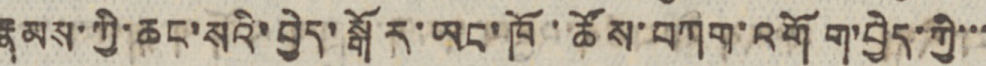རྣམས་ཀྱི་ཆང་སའི་བྱེད་སྒོར་ཡང་ཁོ་ཚོས་བཀག་འགོག་བྱེད་ཀྱི་་་
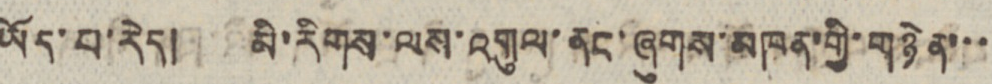ཡོད་པ་རེད། མི་རིགས་ལས་འགུལ་ནང་ཞུགས་མཁན་གྱི་གཉེན་་་
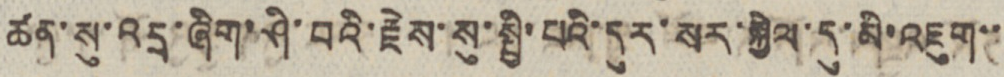ཚན་སུ་འདྲ་ཞིག་ཤི་བའི་རྗེས་སུ་སྤྱི་པའི་དུར་སར་སྐྱིལ་དུ་མི་འཇུག་་
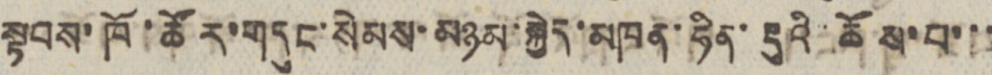སྟབས་ཁོ་ཚོར་གདུང་སེམས་མཉམ་སྐྱེད་མཁན་ཧིན་རྡུའི་ཆོས་པ་་་
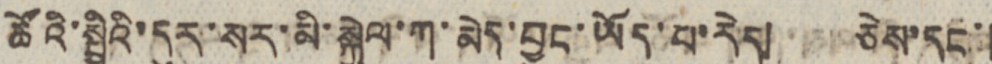ཚོའི་སྤྱིའི་དུར་སར་མི་སྐྱེལ་ཀ་མེད་བྱུང་ཡོད་པ་རེད། ཅེས་དང་།
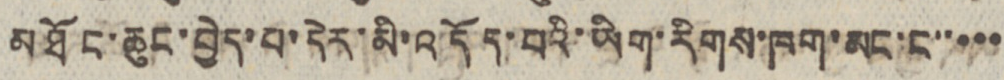མཐོང་ཆུང་བྱེད་པ་དེར་མི་འདོད་པའི་ཡིག་རིགས་ཁག་མང་ང་་་་་
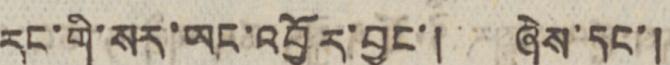རང་གི་སར་ཡང་འབྱོར་བྱུང་། ཞེས་དང་།
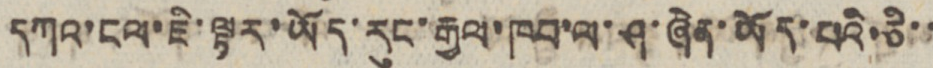དཀའ་ངལ་ཇི་ལྟར་ཡོད་རུང་རྒྱལ་ཁབ་ལ་ཤ་ཞེན་ཡོད་པའི་ཅི་་
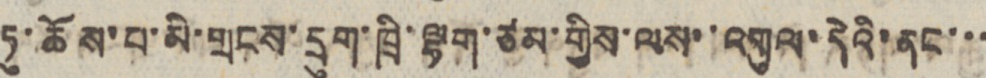ཏུ་ཆོས་པ་མི་གྲངས་དྲུག་ཁྲི་ལྷག་ཙམ་གྱིས་ལས་་འགུལ་དེའི་ནང་་་
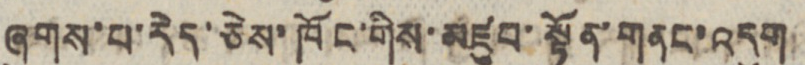ཞུགས་པ་རེད་ཅེས་ཁོང་གིས་མཛུབ་སྟོན་གནང་འདུག
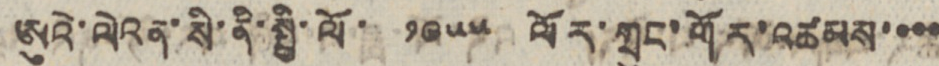ཨུའེ་ལེའན་སི་ནི་སྤྱི་ལོ་ ༡༩༥༥ ལོར་ཀྲུང་གོར་འཚམས་་་་
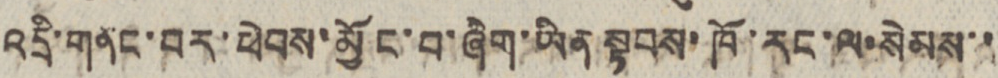འདྲི་གནང་བར་ཕེབས་མྱོང་བ་ཞིག་ཡིན སྟབས་ཁོ་རང་ལ་སེམས་་
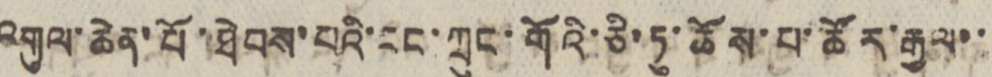འགུལ་ཆེན་པོ་ཐེབས་པའི་ངང་ཀྲུང་གོའི་ཅི་ཏུ་ཆོས་པ་ཚོར་རྒྱལ་་
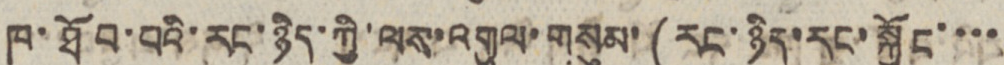ཁ་ཐོབ་པའི་རང་ཉིད་ཀྱི་ལས་འགུལ་གསུམ་(རང་ཉིད་རང་སྐྱོང་་་་
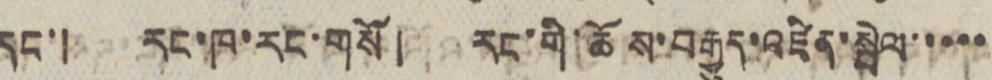དང་། རང་ཁ་རང་གསོ། རང་གི་ཆོས་བརྒྱུད་འཛིན་སྦེལ་་་་་
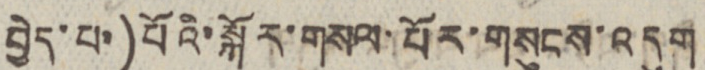བྱེད་པ་)པོའི་སྐོར་གསལ་པོར་གསུངས་འདུག
